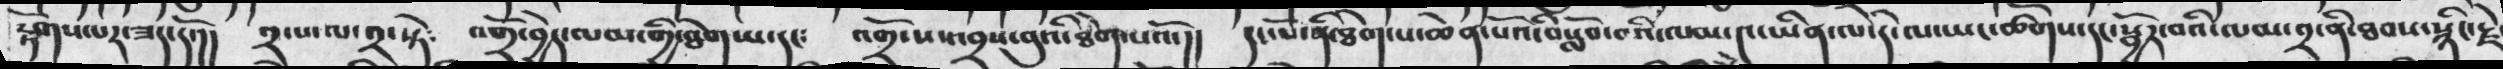རྟོགས་པར་ཟད་དོ་།།  ༢་པ་ལ་༢་སྟེ༴  འགྲོ་བྱེད་ལམ་གྱི་ཐེག་པ་དང༴  འགྲོ་ས་འབྲས་བུའི་ཐེག་པའོ་།།  དང་པོ་ནི་ཐེག་པ་ཆེན་པོའོ་བསློབ་བའི་ལམ་༤་ཡིན་ལ་དེ་ལ་ཡང་ཚོགས་དང་སྦྱོར་བའི་ལམ་༢་ནི་ཐབས་སྙིང་རྗེ
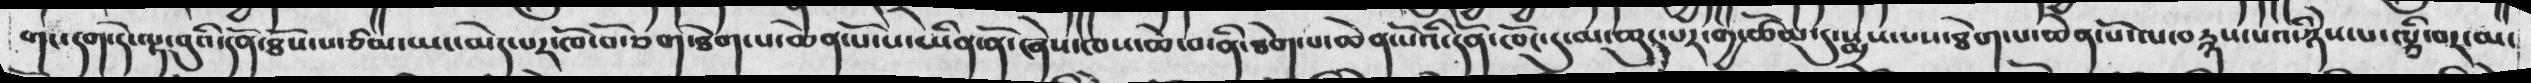གང་དག་དེ་ལྟ་བུའི་དོན་ཐོས་པ་ཙམ་ཡང་མེད་པར་ཁོ་བོ་ཅག་ཐེག་པ་ཆེན་པོ་པ་ཡིན་ནོ་ཞེས་ཁས་ཆེ་བ་ནི་ཐེག་པ་ཆེན་པོ་དོན་ཁོང་དུ་མ་ཆུད་པར་གྱི་ཚོམ་དུ་སྨྲས་པས་ཐེག་པ་ཆེན་པོ་ལ་བརྙས་པའི་ཉེས་པ་ལྕི་བར་མ་
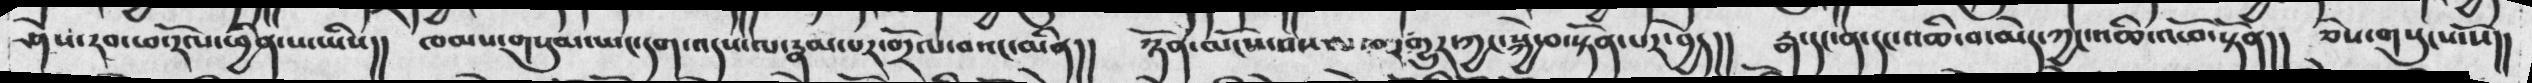ཤེས་རབ་ཕ་རོལ་ཕྱིན་པ་ཡིས།།   ཁམས་གསུམ་ཡང་དག་འདས་ལ་རྣམ་པར་གྲོལ་བའང་མིན།།  ཉོན་མོངས་བསལ་བར་གྱུར་ཀྱང་སྐྱེ་བ་སྟོན་པར་བྱེད།།   རྒ་དང་ན་དང་འཆི་བ་མེད་ཀྱང་འཆི་འཕོ་སྟོན།།   ཅེས་གསུངས་སོ།།
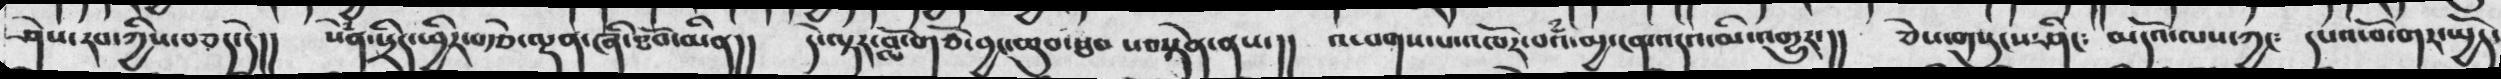ཤེས་རབ་ཀྱིས་བཅད་དེ།།  སེཾན་སྲིད་ཕྱིར་བརྩེ་ལྡན་ཞི་ཐོབ་མིན།།  དེ་ལྟར་བློ་གཙོ་བྱང་ཆུབ་ཐབས་བསྟེན་ནས་།།  འཕགས་པ་འཁོར་བའཾ་མྱ་ངན་འདས་མི་འགྱུར་།།  ཅེས་གསུངས་ཤིང༴ མདོའ་ལས་ཀྱང༴  དཔའ་བོ་གར་སྤྱོད་
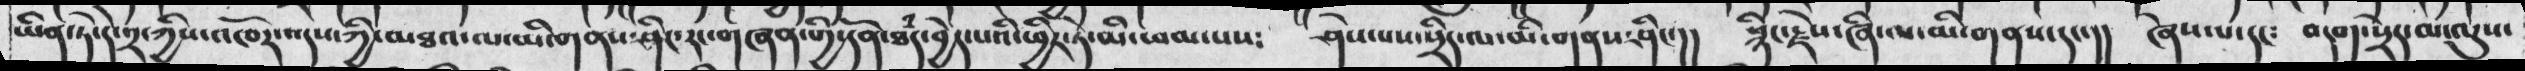ཡིན་ཏེ་དེ་༢་ཀྱིས་འཁོར་འདས་ཀྱི་མཐའ་ལ་མི་གནས་ཤིང་རང་གཞན་གྱི་དོན་ཐཾད་བྱེད་པའི་ཕྱིར་ཏེ་མི་ཕམ་པས༴  ཤེས་པས་སྲིད་ལ་མི་གནས་ཤིང་།།  སྙིང་རྗེས་ཞི་ལ་མི་གནས་དང་།།  ཞེས་པ་དང༴  བདག་སྲེད་མ་ལུས་
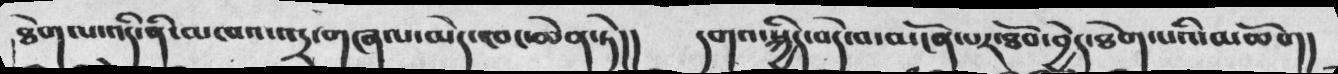ཐེག་པ་འདི་ནི་མཁའ་འདྲ་གཞལ་མེད་ཁང་ཆེན་ཏེ།།   དགའ་སྐྱིད་བདེ་བ་མངོན་པར་ཐོབ་བྱེད་ཐེག་པའི་མཆོག།
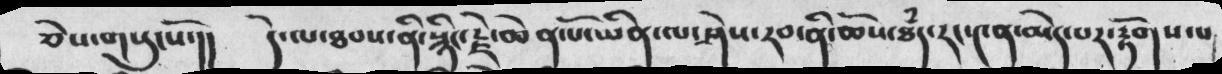ཅེས་གསུངསོ་།།  དེ་ལ་ཐབས་ནི་སྙིང་རྗེ་ཆེན་པོ་ཡིན་ལ་ཤེས་རབ་ནི་ཆོས་ཐཾད་རང་༤ན་མེད་པར་རྟོགས་པ
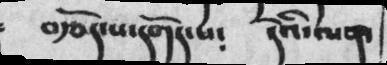བརྩོད་པ་དགོད་པ༴  དེའི་ལན་
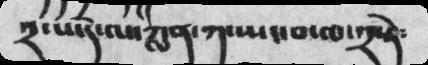༢་པ་དེ་ལ་ཀླན་ཀ་སྤང་བ་ལ་༢་ཏེ༴
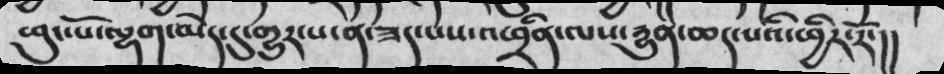ཕུང་པོ་ལྷག་མེད་དུ་གྱུར་པ་ན་ཟད་པས་འཕྲིན་ལས་རྱུན་ཆད་པའི་ཕྱིར་རོ་།།
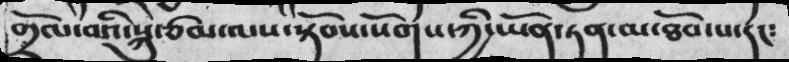གྲོལ་བའི་སྐུ་ཙམ་ལས་སྟོབས་སོགས་ཀྱི་ཡོན་ཏན་མ་ཐོབ་པ་དང༴
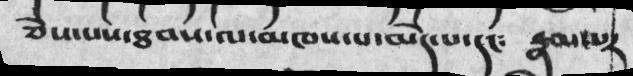ཅེས་པས་ཐབས་ལ་མཁས་པ་མེད་པ་དང༴་ རྣམ་པར
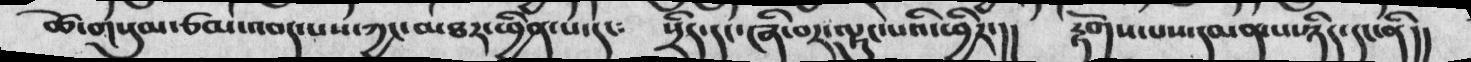ཚེ་གསུམ་ཙམ་འབད་པད་ཀྱང་མཐར་ཕྱིན་པ་དང༴  སྲིད་དང་ཞི་བར་ལྟུང་པའི་ཕྱིར་།།  རྟོགས་པས་དམན་པ་ཉིད་དང་ནི།།
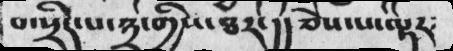བ་སྲིད་པ་༣་གྱིས་ཐར་།། ཅེས་པ་ལྟར༴
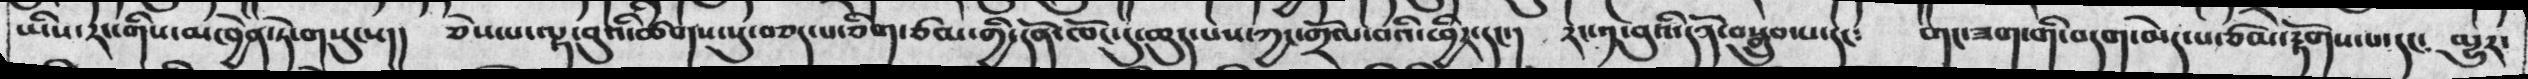ཡིས་རང་གིས་མཁྱེན་ཏེ་གསུངས།།  ཅེས་པ་ལྟ་བུའི་ཚིགས་སུ་བཅད་པ་ཅིག་ཙམ་གྱི་དོན་ཁོང་དུ་ཆུད་པས་ཀྱང་གྲོལ་བའི་ཕྱིར་དང་།  རང་༡་བུའི་དོན་བསྒྲུབ་པ་དང༴  གང་ཟག་གི་བདག་མེད་པ་ཙམ་རྟོགས་པ་དང༴  མྱུར་
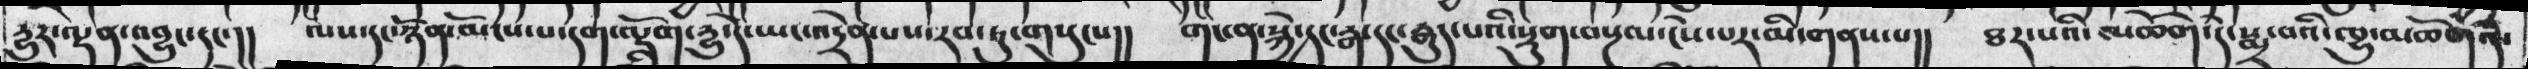རྱུར་ལྡན་འབྱུང་དང་།།  ལས་དང་ཉོན་མོངས་པ་དག་ལྡོག་རྱུ་དེ་ཡང་འདྲེན་པས་རབ་ཏུ་གསུངས།།  གང་ན་སྐྱེ་དང་རྒ་དང་རྒུད་པའི་སྡུག་བསྔལ་ངེས་པར་མི་གནས་པ།།  ཐར་པའི་མཆོག་དེ་སྨྲ་བའི་ལྷུ་མཆོག་དེ་
